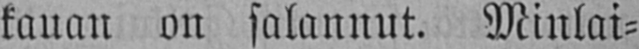kauan on salannut. Minlai-
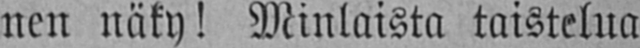nen näky! Minlaista taistelua
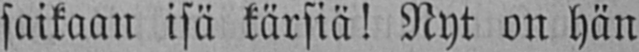saikaan isä kärsiä! Nyt on hän
